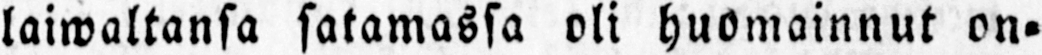laiwaltansa satamassa oli huomainnut on-
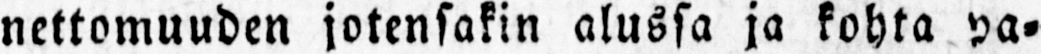nettomuuden jotensakin alussa ja kohta pa-
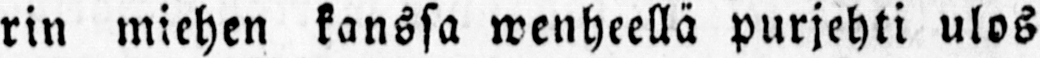rin miehen kanssa wenheellä purjehti ulos
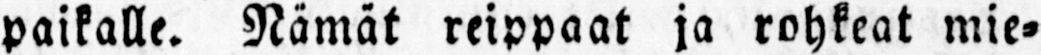paikalle. Nämät reippaat ja rohkeat mie-
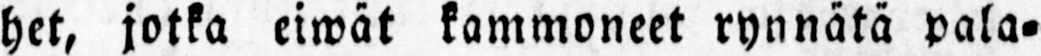het, jotka eiwät kammoneet rynnätä pala-
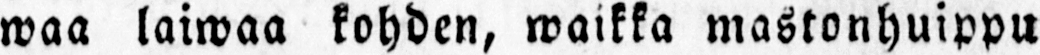waa laiwaa kohden, waikka mastonhuippu
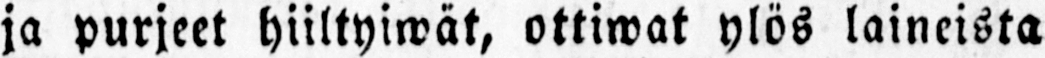ja purjeet hiiltyiwät, ottiwat ylös laineista
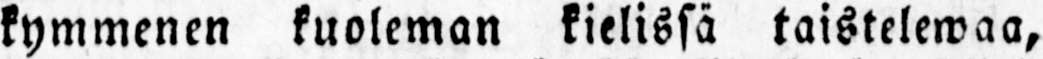kymmenen kuoleman kielissä taistelewaa,
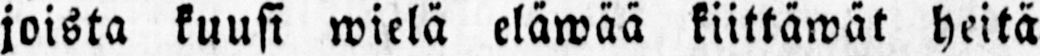joista kuusi wielä eläwää kiittäwat heitä
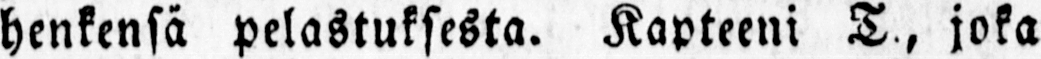henkensä pelastuksesta. Kapteeni T, joka
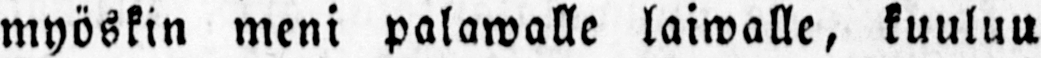myöskin meni palawalle laiwalle, kuuluu
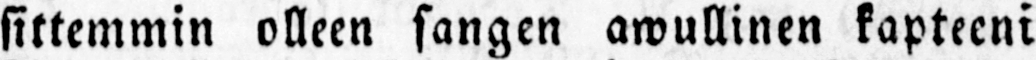sittemmin olleen sangen awullinen kapteeni
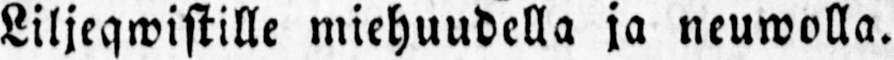Liljeqwistille miehuudella ja neuwolla.
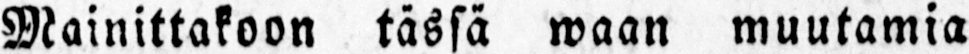Mainittakoon tässä waan muutamia
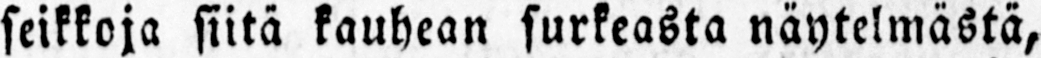seikkoja siitä kauhean surkeasta näytelmästä,
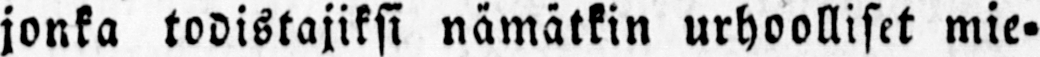jonka todistajiksi nämätkin urhoolliset mie-
